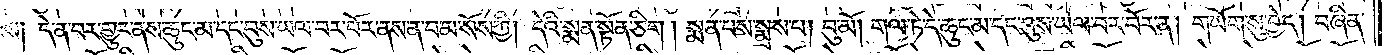ས། དེ་ན་བར་གྱུར་ནས་ཆུང་མ་དང་བུས་ཡལ་བར་བོར་ནས་ན་བ་མ་སོས་ཀྱི། དེའི་སྨན་སྟོན་ཅིག །སྨན་པས་སྨྲས་པ། བུ་མོ། གལ་ཏེ་དེ་ཆུང་མ་དང་བུས་ཡལ་བར་བོར་ན། གཡོག་སུ་བྱེད། བཞིན་
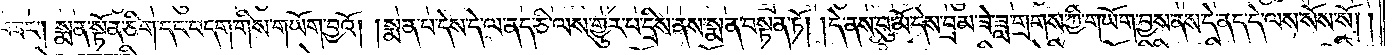བཟང༌། སྨན་སྟོན་ཅིག་དང་བདག་གིས་གཡོག་བྱའོ། །སྨན་པ་དེས་དེ་ལ་ནད་ཅི་ལས་གྱུར་པ་དྲིས་ནས་སྨན་བསྟན་ཏོ། །དེ་ནས་བུ་མོ་དེས་བྲམ་ཟེ་ཟླ་གྲགས་ཀྱི་གཡོག་བྱས་ནས་དེ་ནད་དེ་ལས་སོས་སོ། །
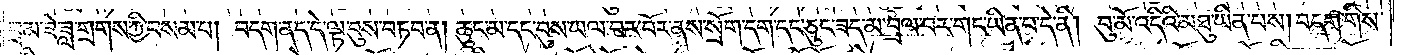བྲམ་ཟེ་ཟླ་གྲགས་ཀྱི་བསམ་པ། བདག་ནད་དེ་ལྟ་བུས་བཏབ་ན། ཆུང་མ་དང་བུས་ཡལ་བར་བོར་ནས་སྲོག་དག་དང་ཅུང་ཟད་མ་བྲལ་བར་གང་ཡིན་པ་དེ་ནི། བུ་མོ་འདིའི་མཐུ་ཡིན་པས། བདག་གིས་
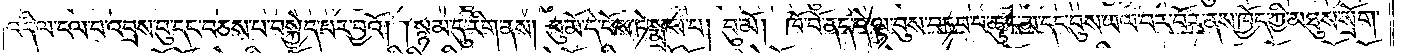འདི་ལ་ངལ་བ་འབྲས་བུ་དང་བཅས་པ་བསྐྱེད་པར་བྱའོ། །སྙམ་དུ་རིག་ནས། བུ་མོ་དེ་བོས་ཏེ་སྨྲས་པ། བུ་མོ། ཁོ་བོ་ནད་དེ་ལྟ་བུས་བཏབ་པ་ཆུང་མ་དང་བུས་ཡལ་བར་བོར་ནས་ཁྱོད་ཀྱི་མཐུས་སྲོག་
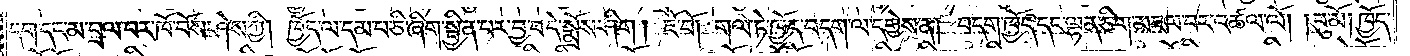དག་དང་མ་བྲལ་བར་ཁོ་བོས་ཤེས་ཀྱི། ཁྱོད་ལ་དམ་པ་ཅི་ཞིག་སྦྱིན་པར་བྱ་བ་དེ་སྨྲོས་ཤིག། ཇོ་བོ། གལ་ཏེ་ཁྱོད་བདག་ལ་དགྱེས་ན། བདག་ཁྱོད་དང་ལྷན་ཅིག་མཇལ་བར་འཚལ་ལོ། །བུ་མོ། ཁྱོད་
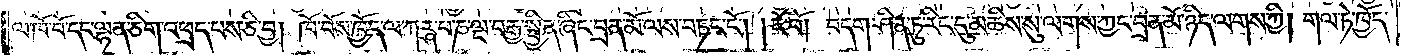ལ་ཁོ་བོ་དང་ལྷན་ཅིག་འཕྲད་པས་ཅི་བྱ། ཁོ་བོས་ཁྱོད་ལ་ཀཪྴ་པ་ཎ་ལྔ་བརྒྱ་སྦྱིན་ཞིང་བྲན་མོ་ལས་བཏང་ངོ༌། །ཇོ་བོ། བདག་ཤིན་ཏུ་རིང་དུ་མཆིས་སུ་ལགས་ཀྱང་བྲན་མོ་ཉིད་ལགས་ཀྱི། གལ་ཏེ་ཁྱོད་
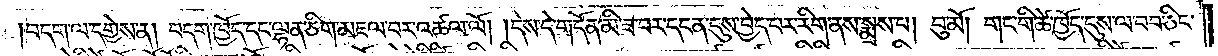བདག་ལ་དགྱེས་ན། བདག་ཁྱོད་དང་ལྷན་ཅིག་མཇལ་བར་འཚལ་ལོ། །དེས་དེ་གདོན་མི་ཟ་བར་དང་ན་དུས་བྱེད་པར་རིག་ནས་སྨྲས་པ། བུ་མོ། གང་གི་ཚེ་ཁྱོད་དུས་ལ་བབ་ཅིང་
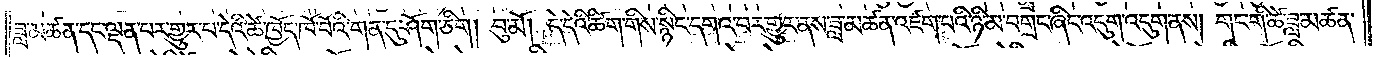ཟླ་མཚན་དང་ལྡན་པར་གྱུར་པ་དེའི་ཚེ་ཁྱོད་ཁོ་བོའི་གན་དུ་ཤོག་ཅིག། བུ་མོ། དེ་དེའི་ཚིག་གིས་སྙིང་དགའ་བར་གྱུར་ནས་ཟླ་མཚན་འཛག་པའི་ཉི་མ་བགྲང་ཞིང་འདུག་འདུག་ནས། གང་གི་ཚེ་ཟླ་མཚན་
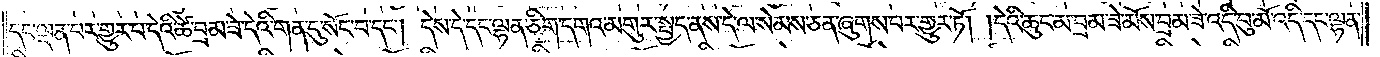དང་ལྡན་པར་གྱུར་པ་དེའི་ཚེ་བྲམ་ཟེ་དེའི་གན་དུ་སོང་བ་དང༌། དེས་དེ་དང་ལྷན་ཅིག་དགའ་མགུར་སྤྱད་ནས་དེ་ལ་སེམས་ཅན་ཞུགས་པར་གྱུར་ཏོ། །དེའི་ཆུང་མ་བྲམ་ཟེ་མོས་བྲམ་ཟེ་འདི་བུ་མོ་འདི་དང་ལྷན་
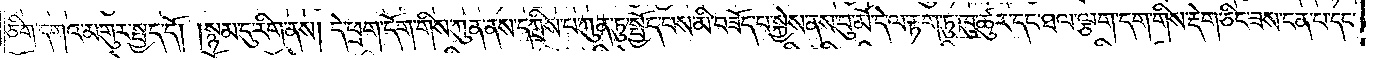ཅིག་དགའ་མགུར་སྤྱད་དོ། །སྙམ་དུ་རིག་ནས། དེ་ཕྲག་དོག་གིས་ཀུན་ནས་དཀྲིས་པ་ཀུན་ཏུ་སྤྱོད་པས་མི་བཟོད་པ་སྐྱེས་ནས་བུ་མོ་དེ་ལ་རྟག་ཏུ་ཁུ་ཚུར་དང་ཐལ་ལྕག་དག་གིས་རྡེག་ཅིང་ཟས་ངན་པ་དང་
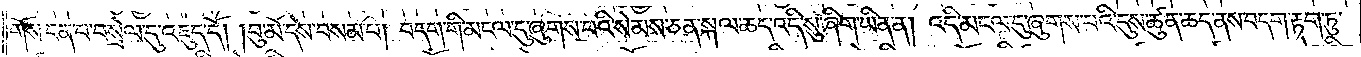གོས་ངན་པ་བསྲེལ་དུ་འཇུད་དོ། །བུ་མོ་དེས་བསམ་པ། བདག་གིས་མངལ་དུ་ཞུགས་པའི་སེམས་ཅན་སྐལ་ཆད་འདི་སུ་ཞིག་ཡིན་ན། འདི་མངལ་དུ་ཞུགས་པའི་དུས་ཚུན་ཆད་ནས་བདག་རྟག་ཏུ་
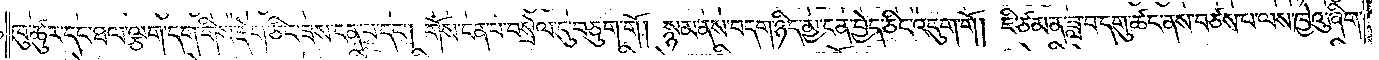ཁུ་ཚུར་དང་ཐལ་ལྕག་དག་གིས་རྡེག་ཅིང་ཟས་ངན་པ་དང༌། གོས་ངན་པ་བསྲེལ་དུ་བཅུག་གོ། སྙམ་ནས་བདག་ཉིད་མྱ་ངན་བྱེད་ཅིང་འདུག་གོ། ཇི་ཙམ་ན་ཟླ་བ་དགུ་ཚང་ནས་བཙས་པ་ལས་ཁྱེའུ་ཞིག་
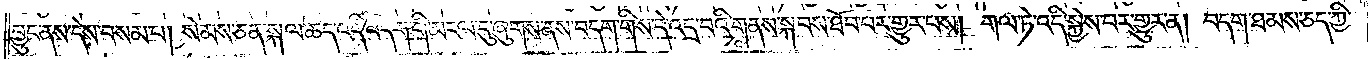བྱུང་ནས་དེས་བསམ་པ། སེམས་ཅན་སྐལ་ཆད་འདི་བདག་གི་མངལ་དུ་ཞུགས་ནས་བདག་གིས་དེ་འདྲ་བའི་གནས་སྐབས་ཐོབ་པར་གྱུར་པས། གལ་ཏེ་འདི་སྐྱེས་པར་གྱུར་ན། བདག་ཐམས་ཅད་ཀྱི་
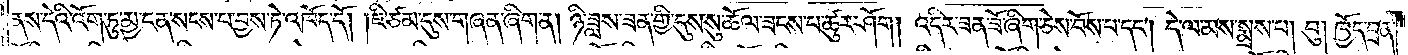ནས་དེའི་འོག་ཏུ་མྱ་ངན་སངས་པ་བྱས་ཏེ་འཁོད་དོ། །ཇི་ཙམ་དུས་གཞན་ཞིག་ན། ཉི་ཟླས་ཟན་གྱི་དུས་སུ་ཆོལ་ཟངས་པ་ཚུར་ཤོག། འདིར་ཟན་ཟོ་ཞིག་ཅེས་བོས་པ་དང༌། དེ་ལ་མས་སྨྲས་པ། བུ། ཁྱོད་བྲན་
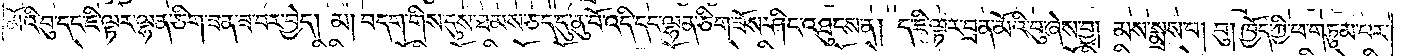མོའི་བུ་དང་ཇི་ལྟར་ལྷན་ཅིག་ཟན་ཟ་བར་བྱེད། མ། བདག་གིས་དུས་ཐམས་ཅད་དུ་ནུ་བོ་འདི་དང་ལྷན་ཅིག་ཟོས་ཤིང་འཐུངས་ན། ད་ཇི་ལྟར་བྲན་མོའི་བུ་ཞེས་བྱ། མས་སྨྲས་པ། བུ། ཁྱོད་ཀྱི་ཕ་གཏུམ་པར་
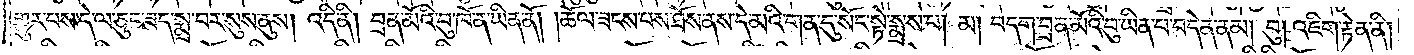གྱུར་པས་དེ་ལ་ཅུང་ཟད་སྨྲ་བར་སུས་ནུས། འདི་ནི། བྲན་མོའི་བུ་ཁོ་ན་ཡིན་ནོ། །ཆོལ་ཟངས་པས་ཐོས་ནས་དེ་མའི་གན་དུ་སོང་སྟེ་སྨྲས་པ། མ། བདག་བྲན་མོའི་བུ་ཡིན་པ་བདེན་ནམ། བུ། འཇིག་རྟེན་ནི།
